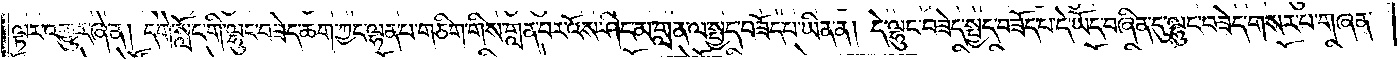ལྟར་འགྱུར་ཞེ་ན། དགེ་སློང་གི་ལྷུང་བཟེད་ཆག་ཀྱང་ལྷན་པ་གཅིག་གིས་གླན་པར་འོས་ཤིང་མ་གླན་ལ་སྤྱད་བཟོད་པ་ཡིན་ན། དེ་ལྷུང་བཟེད་སྤྱད་བཟོད་པ་དེ་ཡོད་བཞིན་དུ་ལྷུང་བཟེད་གསར་པ་གཞན་
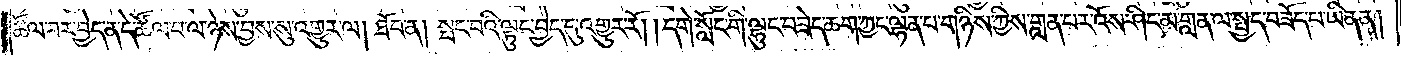ཚོལ་བར་བྱེད་ན་དེ་ཚོལ་བ་ལ་ཉེས་བྱས་སུ་འགྱུར་ལ། ཐོབ་ན། སྤང་བའི་ལྟུང་བྱེད་དུ་འགྱུར་རོ། །དགེ་སློང་གི་ལྷུང་བཟེད་ཆག་ཀྱང་ལྷན་པ་གཉིས་ཀྱིས་གླན་པར་འོས་ཤིང་མ་གླན་ལ་སྤྱད་བཟོད་པ་ཡིན་ན།
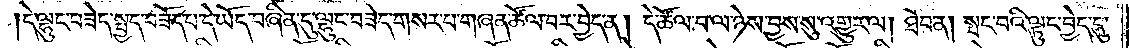དེ་ལྷུང་བཟེད་སྤྱད་བཟོད་པ་དེ་ཡོད་བཞིན་དུ་ལྷུང་བཟེད་གསར་པ་གཞན་ཚོལ་བར་བྱེད་ན། དེ་ཚོལ་བ་ལ་ཉེས་བྱས་སུ་འགྱུར་ལ། ཐོབ་ན། སྤང་བའི་ལྟུང་བྱེད་དུ་
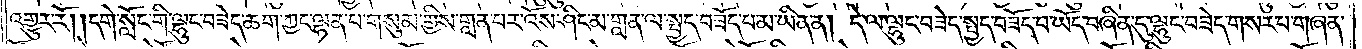འགྱུར་རོ། །དགེ་སློང་གི་ལྷུང་བཟེད་ཆག་ཀྱང་ལྷན་པ་གསུམ་གྱིས་གླན་པར་འོས་ཤིང་མ་གླན་ལ་སྤྱད་བཟོད་པ་མ་ཡིན་ན། དེ་ལ་ལྷུང་བཟེད་སྤྱད་བཟོད་པ་ཡོད་བཞིན་དུ་ལྷུང་བཟེད་གསར་པ་གཞན་
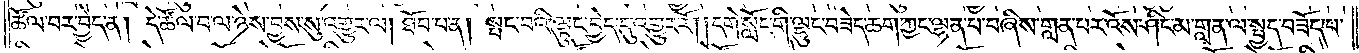ཚོལ་བར་བྱེད་ན། དེ་ཚོལ་བ་ལ་ཉེས་བྱས་སུ་འགྱུར་ལ། ཐོབ་པ་ན། སྤང་བའི་ལྟུང་བྱེད་དུ་འགྱུར་རོ། །དགེ་སློང་གི་ལྷུང་བཟེད་ཆག་ཀྱང་ལྷན་པ་བཞིས་གླན་པར་འོས་ཤིང་མ་གླན་ལ་སྤྱད་བཟོད་པ་
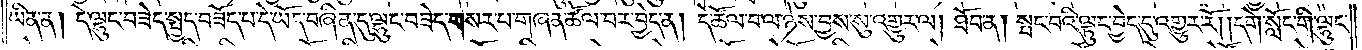ཡིན་ན། དེ་ལྷུང་བཟེད་སྤྱད་བཟོད་པ་དེ་ཡོད་བཞིན་དུ་ལྷུང་བཟེད་གསར་པ་གཞན་ཚོལ་བར་བྱེད་ན། དེ་ཚོལ་བ་ལ་ཉེས་བྱས་སུ་འགྱུར་ལ། ཐོབ་ན། སྤང་བའི་ལྟུང་བྱེད་དུ་འགྱུར་རོ། །དགེ་སློང་གི་ལྷུང་
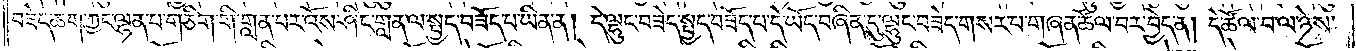བཟེད་ཆག་ཀྱང་ལྷན་པ་གཅིག་གི་གླན་པར་འོས་ཤིང་གླན་ལ་སྤྱད་བཟོད་པ་ཡིན་ན། དེ་ལྷུང་བཟེད་སྤྱད་བཟོད་པ་དེ་ཡོད་བཞིན་དུ་ལྷུང་བཟེད་གསར་པ་གཞན་ཚོལ་བར་བྱེད་ན། དེ་ཚོལ་བ་ལ་ཉེས་
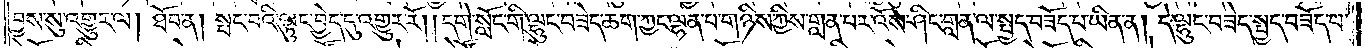བྱས་སུ་འགྱུར་ལ། ཐོབ་ན། སྤང་བའི་ལྟུང་བྱེད་དུ་འགྱུར་རོ། །དགེ་སློང་གི་ལྷུང་བཟེད་ཆག་ཀྱང་ལྷན་པ་གཉིས་ཀྱིས་གླན་པར་འོས་ཤིང་གླན་ལ་སྤྱད་བཟོད་པ་ཡིན་ན། དེ་ལྷུང་བཟེད་སྤྱད་བཟོད་པ་
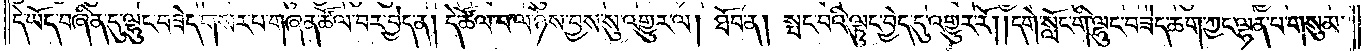དེ་ཡོད་བཞིན་དུ་ལྷུང་བཟེད་གསར་པ་གཞན་ཚོལ་བར་བྱེད་ན། དེ་ཚོལ་བ་ལ་ཉེས་བྱས་སུ་འགྱུར་ལ། ཐོབ་ན། སྤང་བའི་ལྟུང་བྱེད་དུ་འགྱུར་རོ། །དགེ་སློང་གི་ལྷུང་བཟེད་ཆག་ཀྱང་ལྷན་པ་གསུམ་
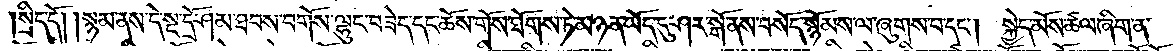སྲིད་དོ། །སྙམ་ནས་དེ་སྔ་དྲོ་ཤམ་ཐབས་བགོས་ལྷུང་བཟེད་དང་ཆོས་གོས་ཐོགས་ཏེ་མཉན་ཡོད་དུ་ཤར་སྒོ་ནས་བསོད་སྙོམས་ལ་ཞུགས་པ་དང༌། སྐྱེད་མོས་ཚལ་ཞིག་ན་
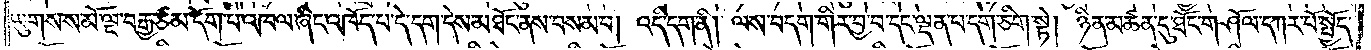ཡུགས་ས་མོ་ལྔ་བརྒྱ་ཙམ་དོག་པ་འཁལ་ཞིང་འཁོད་པ་དེ་དག་དེས་མཐོང་ནས་བསམ་པ། འདི་དག་ནི། ལས་བདག་གིར་བྱ་བ་དང་ལྡན་པ་དག་ཅིག་སྟེ། ཉིན་མཚན་དུ་ཐོང་གཤོལ་དཀར་པོ་སྤྱོད་
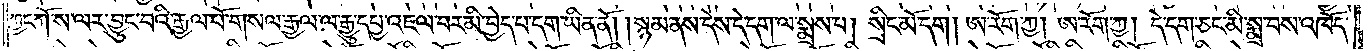ཀྱང་ཀོ་ས་ལར་བྱུང་བའི་རྒྱལ་པོ་གསལ་རྒྱལ་ལ་རྒྱུ་དཔྱ་འཇལ་བར་མི་བྱེད་པ་དག་ཡིན་ནོ། །སྙམ་ནས་དེས་དེ་དག་ལ་སྨྲས་པ། སྲིང་མོ་དག །ཨ་རོག་ཀྱ། ཨ་རོག་ཀྱ། དེ་དག་ཅང་མི་སྨྲ་བས་འཁོད་
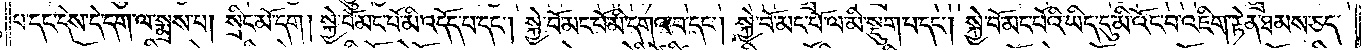པ་དང་དེས་དེ་དག་ལ་སྨྲས་པ། སྲིང་མོ་དག །སྐྱེ་བོ་མང་པོ་མི་འདོད་པ་དང༌། སྐྱེ་བོ་མང་པོ་མི་དགའ་བ་དང༌། སྐྱེ་བོ་མང་པོ་ལ་མི་སྡུག་པ་དང༌། སྐྱེ་བོ་མང་པོའི་ཡིད་དུ་མི་འོང་བ་འཇིག་རྟེན་ཐམས་ཅད་
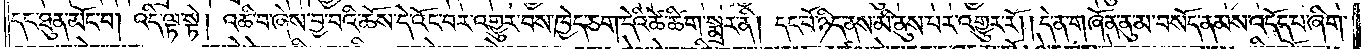དང་ཐུན་མོང་བ། འདི་ལྟ་སྟེ། འཆི་བ་ཞེས་བྱ་བའི་ཆོས་དེ་འོང་བར་འགྱུར་བས་ཁྱེད་ཅག་དེའི་ཚེ་ཚིག་སྨྲར་ནི། དང་པོ་ཉིད་ནས་མི་ནུས་པར་འགྱུར་རོ། །དེ་ན་གཞོན་ནུ་མ་བསོད་ནམས་འདོད་པ་ཞིག་
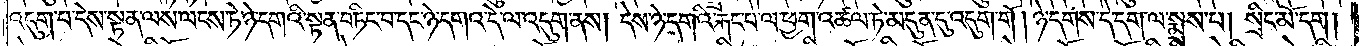འདུག་པ་དེས་སྟན་ལས་ལངས་ཏེ་ཉེ་དགའི་སྟན་བཏིང་བ་དང་ཉེ་དགའ་དེ་ལ་འདུག་ནས། དེས་ཉེ་དགའི་རྐང་པ་ལ་ཕྱག་འཚལ་ཏེ་མདུན་དུ་འདུག་གོ །ཉེ་དགས་དེ་དག་ལ་སྨྲས་པ། སྲིང་མོ་དག །
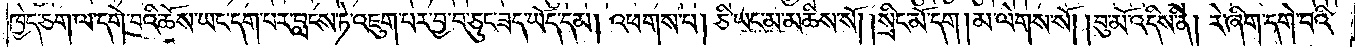ཁྱེད་ཅག་ལ་དགེ་བའི་ཆོས་ཡང་དག་པར་བླངས་ཏེ་འཇུག་པར་བྱ་བ་ཅུང་ཟད་ཡོད་དམ། འཕགས་པ། ཅི་ཡང་མ་མཆིས་སོ། །སྲིང་མོ་དག །མ་ལེགས་སོ། །བུ་མོ་འདིས་ནི། རེ་ཞིག་དགེ་བའི་
